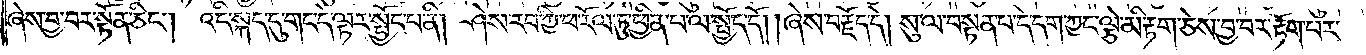ཞེས་བྱ་བར་སྟོན་ཅིང༌། འདི་སྐད་དུ་གང་དེ་ལྟར་སྤྱོད་པ་ནི། ཤེས་རབ་ཀྱི་ཕ་རོལ་ཏུ་ཕྱིན་པ་ལ་སྤྱོད་དོ། །ཞེས་བརྗོད་དེ། སུ་ལ་བསྟན་པ་དེ་དག་ཀྱང་ལྕེ་མི་རྟག་ཅེས་བྱ་བར་རྟོག་པར་
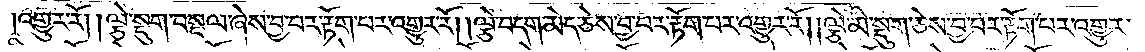འགྱུར་རོ། །ལྕེ་སྡུག་བསྔལ་ཞེས་བྱ་བར་རྟོག་པར་འགྱུར་རོ། །ལྕེ་བདག་མེད་ཅེས་བྱ་བར་རྟོག་པར་འགྱུར་རོ། །ལྕེ་མི་སྡུག་ཅེས་བྱ་བར་རྟོག་པར་འགྱུར་
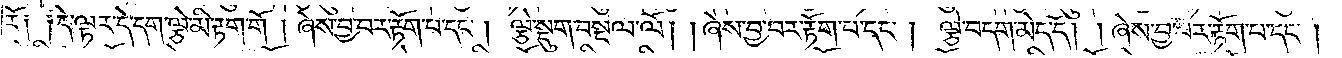རོ༑ ༑དེ་ལྟར་དེ་དག་ལྕེ་མི་རྟོག་གོ། ཞེས་བྱ་བར་རྟོག་པ་དང༌། ལྕེ་སྡུག་བསྔལ་ལོ། །ཞེས་བྱ་བར་རྟོག་པ་དང༌། ལྕེ་བདག་མེད་དོ། །ཞེས་བྱ་བར་རྟོག་པ་དང༌།
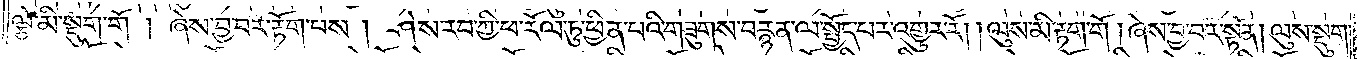ལྕེ་མི་སྡུག་གོ། ཞེས་བྱ་བར་རྟོག་པས། ཤེས་རབ་ཀྱི་ཕ་རོལ་ཏུ་ཕྱིན་པའི་གཟུགས་བརྙན་ལ་སྤྱོད་པར་འགྱུར་རོ། །ལུས་མི་རྟག་གོ། ཞེས་བྱ་བར་སྟོན། ལུས་སྡུག་
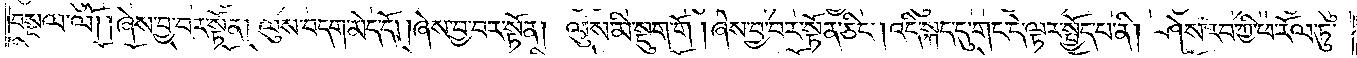བསྔལ་ལོ། །ཞེས་བྱ་བར་སྟོན། ལུས་བདག་མེད་དོ། །ཞེས་བྱ་བར་སྟོན། ལུས་མི་སྡུག་གོ། ཞེས་བྱ་བར་སྟོན་ཅིང༌། འདི་སྐད་དུ་གང་དེ་ལྟར་སྤྱོད་པ་ནི། ཤེས་རབ་ཀྱི་ཕ་རོལ་ཏུ་
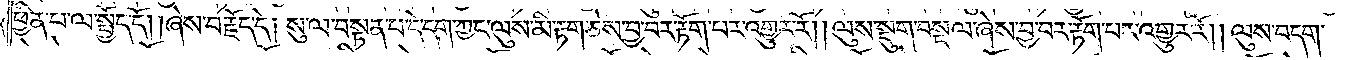ཕྱིན་པ་ལ་སྤྱོད་དོ། །ཞེས་བརྗོད་དེ། སུ་ལ་བསྟན་པ་དེ་དག་ཀྱང་ལུས་མི་རྟག་ཅེས་བྱ་བར་རྟོག་པར་འགྱུར་རོ། །ལུས་སྡུག་བསྔལ་ཞེས་བྱ་བར་རྟོག་པར་འགྱུར་རོ། །ལུས་བདག་
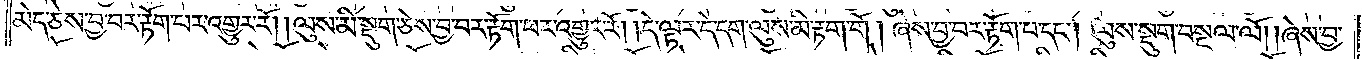མེད་ཅེས་བྱ་བར་རྟོག་པར་འགྱུར་རོ། །ལུས་མི་སྡུག་ཅེས་བྱ་བར་རྟོག་པར་འགྱུར་རོ། །དེ་ལྟར་དེ་དག་ལུས་མི་རྟག་གོ། ཞེས་བྱ་བར་རྟོག་པ་དང༌། ལུས་སྡུག་བསྔལ་ལོ། །ཞེས་བྱ་
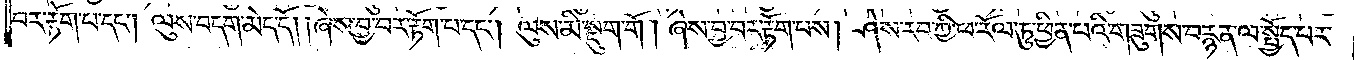བར་རྟོག་པ་དང༌། ལུས་བདག་མེད་དོ། །ཞེས་བྱ་བར་རྟོག་པ་དང༌། ལུས་མི་སྡུག་གོ། ཞེས་བྱ་བར་རྟོག་པས། ཤེས་རབ་ཀྱི་ཕ་རོལ་ཏུ་ཕྱིན་པའི་གཟུགས་བརྙན་ལ་སྤྱོད་པར་
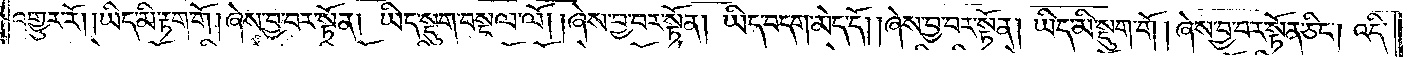འགྱུར་རོ། །ཡིད་མི་རྟག་གོ། ཞེས་བྱ་བར་སྟོན། །ཡིད་སྡུག་བསྔལ་ལོ། །ཞེས་བྱ་བར་སྟོན། ཡིད་བདག་མེད་དོ། །ཞེས་བྱ་བར་སྟོན། ཡིད་མི་སྡུག་གོ། ཞེས་བྱ་བར་སྟོན་ཅིང༌། འདི་
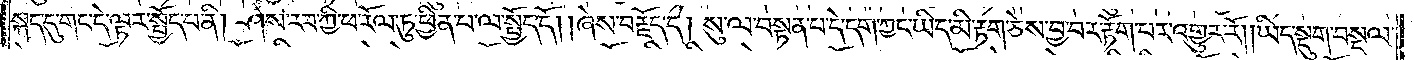སྐད་དུ་གང་དེ་ལྟར་སྤྱོད་པ་ནི། ཤེས་རབ་ཀྱི་ཕ་རོལ་ཏུ་ཕྱིན་པ་ལ་སྤྱོད་དོ། །ཞེས་བརྗོད་དེ། སུ་ལ་བསྟན་པ་དེ་དག་ཀྱང་ཡིད་མི་རྟག་ཅེས་བྱ་བར་རྟོག་པར་འགྱུར་རོ། །ཡིད་སྡུག་བསྔལ་
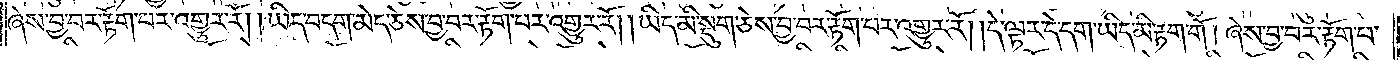ཞེས་བྱ་བར་རྟོག་པར་འགྱུར་རོ། །ཡིད་བདག་མེད་ཅེས་བྱ་བར་རྟོག་པར་འགྱུར་རོ། །ཡིད་མི་སྡུག་ཅེས་བྱ་བར་རྟོག་པར་འགྱུར་རོ། །དེ་ལྟར་དེ་དག་ཡིད་མི་རྟག་གོ། ཞེས་བྱ་བར་རྟོག་པ་
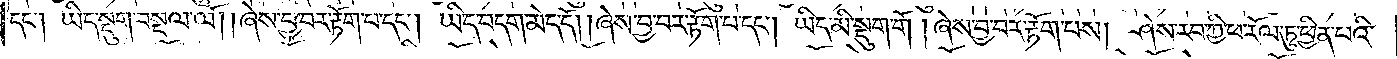དང༌། ཡིད་སྡུག་བསྔལ་ལོ། །ཞེས་བྱ་བར་རྟོག་པ་དང༌། ཡིད་བདག་མེད་དོ། །ཞེས་བྱ་བར་རྟོག་པ་དང༌། ཡིད་མི་སྡུག་གོ། ཞེས་བྱ་བར་རྟོག་པས། ཤེས་རབ་ཀྱི་ཕ་རོལ་ཏུ་ཕྱིན་པའི་
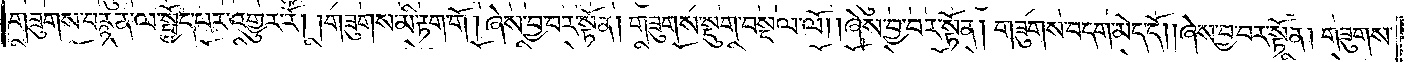གཟུགས་བརྙན་ལ་སྤྱོད་པར་འགྱུར་རོ། །གཟུགས་མི་རྟག་གོ། ཞེས་བྱ་བར་སྟོན། གཟུགས་སྡུག་བསྔལ་ལོ། །ཞེས་བྱ་བར་སྟོན། གཟུགས་བདག་མེད་དོ། །ཞེས་བྱ་བར་སྟོན། གཟུགས་
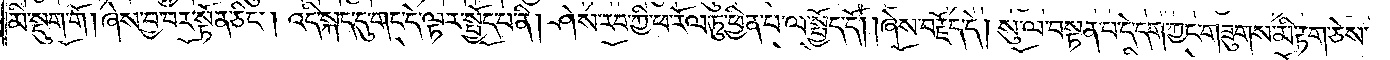མི་སྡུག་གོ། ཞེས་བྱ་བར་སྟོན་ཅིང༌། འདི་སྐད་དུ་གང་དེ་ལྟར་སྤྱོད་པ་ནི། ཤེས་རབ་ཀྱི་ཕ་རོལ་ཏུ་ཕྱིན་པ་ལ་སྤྱོད་དོ། །ཞེས་བརྗོད་དེ། སུ་ལ་བསྟན་པ་དེ་དག་ཀྱང་གཟུགས་མི་རྟག་ཅེས་
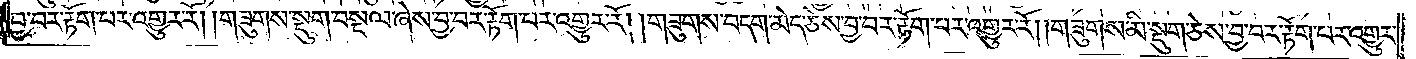བྱ་བར་རྟོག་པར་འགྱུར་རོ། །གཟུགས་སྡུག་བསྔལ་ཞེས་བྱ་བར་རྟོག་པར་འགྱུར་རོ། །གཟུགས་བདག་མེད་ཅེས་བྱ་བར་རྟོག་པར་འགྱུར་རོ། །གཟུགས་མི་སྡུག་ཅེས་བྱ་བར་རྟོག་པར་འགྱུར་
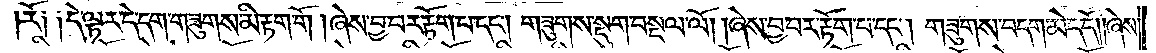རོ༑ ༑དེ་ལྟར་དེ་དག་གཟུགས་མི་རྟག་གོ། ཞེས་བྱ་བར་རྟོག་པ་དང༌། གཟུགས་སྡུག་བསྔལ་ལོ། །ཞེས་བྱ་བར་རྟོག་པ་དང༌། གཟུགས་བདག་མེད་དོ། །ཞེས་
